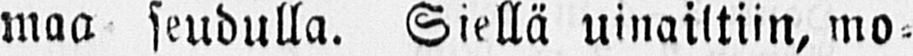maa seudulla. Siellä uinailtiin, mo-
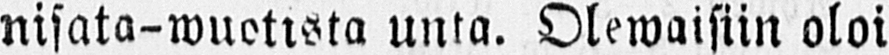nisata-wuotista unta. Olewaisiin oloi-
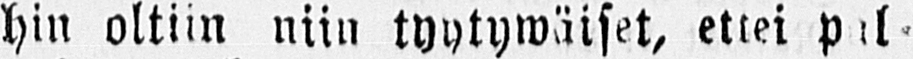hin oltiin niin tyytywäiset, ettei pal-
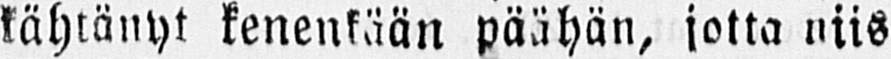kähtänyt kenenkään päähän, jotta niis-
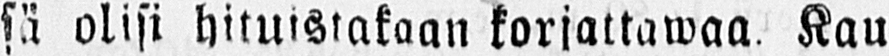sä olisi hituistakaan korjattawaa. Kau-
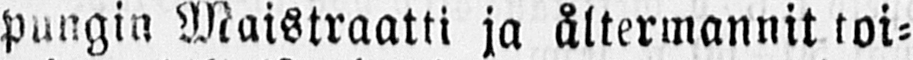pungin Maistraatti ja åltermannit toi-
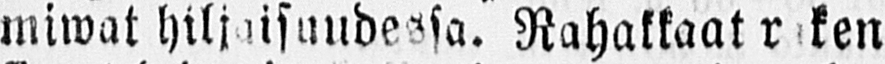miwat hiljaisuudessa. Rahakkaat raken-
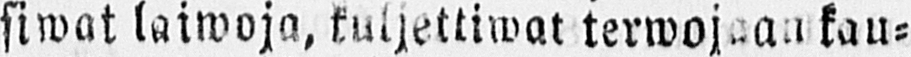siwat laiwoja, kuljettiwat terwojaan kau-
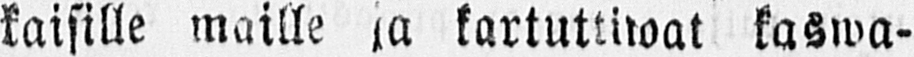kaisille maille ja kartuttiwat kaswa-
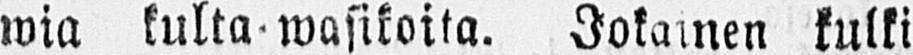wia kulta-wasikoita. Jokainen kulki
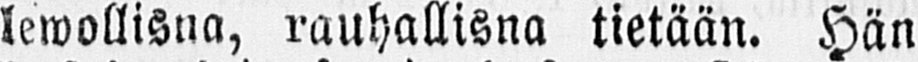lewollisna, rauhallisna tietään. Hän
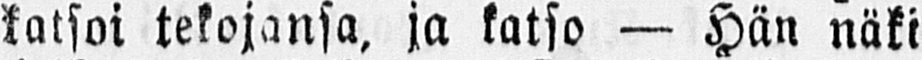katsoi tekojansa, ja katso — Hän näki
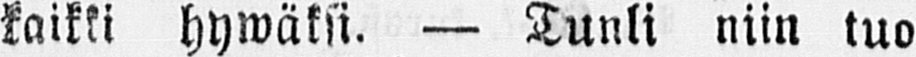kaikki hywäksi. — Tunli niin tuo
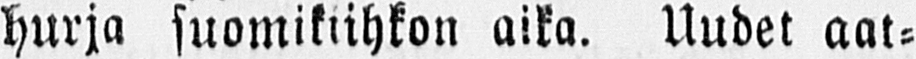hurja suomikiihkon aika. Uudet aat-
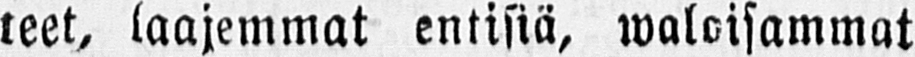teet, laajemmat entisiä, waloisammat
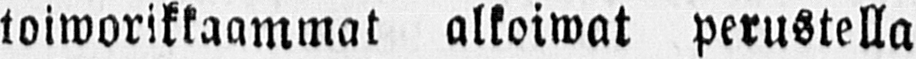toiworikkaammat alkoiwat perustella
